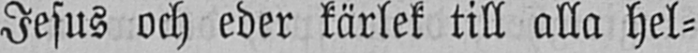Jesus och eder kärlek till alla hel-
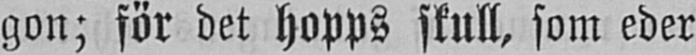gon; för det hopps skull, som eder
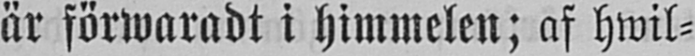är förwaradt i himmelen; af hwil-
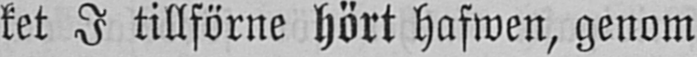ket I tillförne hört hafwen, genom
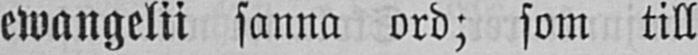ewangelii sanna ord; som till
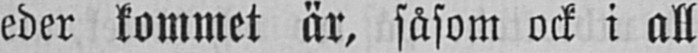eder kommet är, såsom ock i all
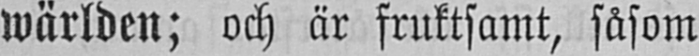wärlden; och ar fruktsamt, såsom
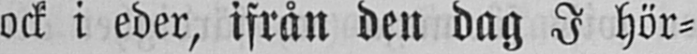ock i eder, ifrån den dag I hör-
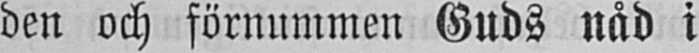den och förnummen Guds nåd i
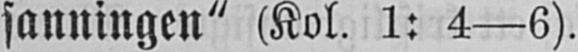sanningen" (Kol. 1: 4—6).
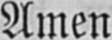Amen
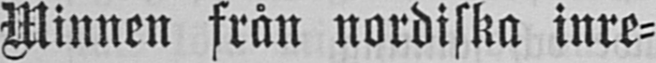Minnen från nordiska inre-
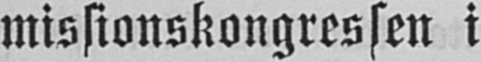missionskongressen i
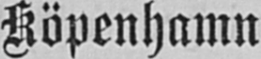Köpenhamn
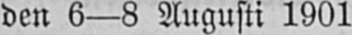den 6—8 Augusti 1901
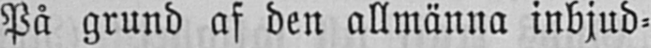På grund af den allmänna inbjud-
